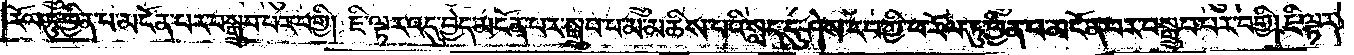རོལ་ཏུ་ཕྱིན་པ་མངོན་པར་བསྒྲུབ་པར་བགྱི། ཇི་ལྟར་འདུ་བྱེད་མངོན་པར་སྒྲུབ་པ་མ་མཆིས་པའི་སླད་དུ་ཤེས་རབ་ཀྱི་ཕ་རོལ་ཏུ་ཕྱིན་པ་མངོན་པར་བསྒྲུབ་པར་བགྱི། ཇི་ལྟར་
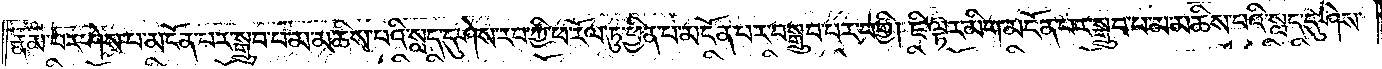རྣམ་པར་ཤེས་པ་མངོན་པར་སྒྲུབ་པ་མ་མཆིས་པའི་སླད་དུ་ཤེས་རབ་ཀྱི་ཕ་རོལ་ཏུ་ཕྱིན་པ་མངོན་པར་བསྒྲུབ་པར་བགྱི། ཇི་ལྟར་མིག་མངོན་པར་སྒྲུབ་པ་མ་མཆིས་པའི་སླད་དུ་ཤེས་
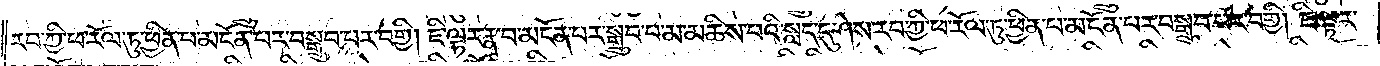རབ་ཀྱི་ཕ་རོལ་ཏུ་ཕྱིན་པ་མངོན་པར་བསྒྲུབ་པར་བགྱི། ཇི་ལྟར་རྣ་བ་མངོན་པར་སྒྲུབ་པ་མ་མཆིས་པའི་སླད་དུ་ཤེས་རབ་ཀྱི་ཕ་རོལ་ཏུ་ཕྱིན་པ་མངོན་པར་བསྒྲུབ་པར་བགྱི། ཇི་ལྟར་
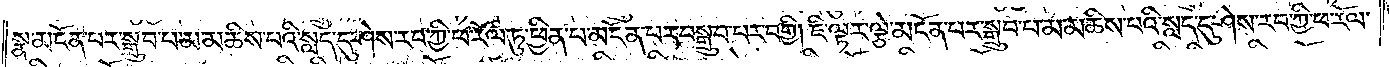སྣ་མངོན་པར་སྒྲུབ་པ་མ་མཆིས་པའི་སླད་དུ་ཤེས་རབ་ཀྱི་ཕ་རོལ་ཏུ་ཕྱིན་པ་མངོན་པར་བསྒྲུབ་པར་བགྱི། ཇི་ལྟར་ལྕེ་མངོན་པར་སྒྲུབ་པ་མ་མཆིས་པའི་སླད་དུ་ཤེས་རབ་ཀྱི་ཕ་རོལ་
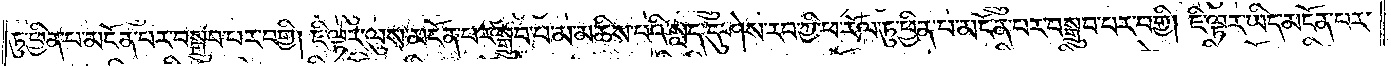ཏུ་ཕྱིན་པ་མངོན་པར་བསྒྲུབ་པར་བགྱི། ཇི་ལྟར་ལུས་མངོན་པར་སྒྲུབ་པ་མ་མཆིས་པའི་སླད་དུ་ཤེས་རབ་ཀྱི་ཕ་རོལ་ཏུ་ཕྱིན་པ་མངོན་པར་བསྒྲུབ་པར་བགྱི། ཇི་ལྟར་ཡིད་མངོན་པར་
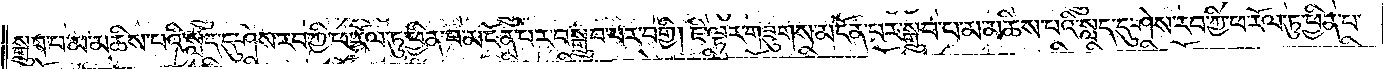སྒྲུབ་པ་མ་མཆིས་པའི་སླད་དུ་ཤེས་རབ་ཀྱི་ཕ་རོལ་ཏུ་ཕྱིན་པ་མངོན་པར་བསྒྲུབ་པར་བགྱི། ཇི་ལྟར་གཟུགས་མངོན་པར་སྒྲུབ་པ་མ་མཆིས་པའི་སླད་དུ་ཤེས་རབ་ཀྱི་ཕ་རོལ་ཏུ་ཕྱིན་པ་
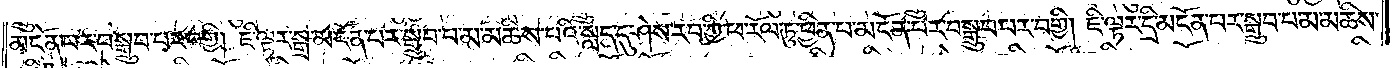མངོན་པར་བསྒྲུབ་པར་བགྱི། ཇི་ལྟར་སྒྲ་མངོན་པར་སྒྲུབ་པ་མ་མཆིས་པའི་སླད་དུ་ཤེས་རབ་ཀྱི་ཕ་རོལ་ཏུ་ཕྱིན་པ་མངོན་པར་བསྒྲུབ་པར་བགྱི། ཇི་ལྟར་དྲི་མངོན་པར་སྒྲུབ་པ་མ་མཆིས་
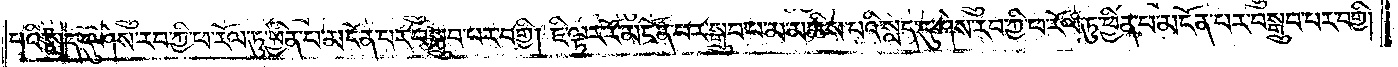པའི་སླད་དུ་ཤེས་རབ་ཀྱི་ཕ་རོལ་ཏུ་ཕྱིན་པ་མངོན་པར་བསྒྲུབ་པར་བགྱི། ཇི་ལྟར་རོ་མངོན་པར་སྒྲུབ་པ་མ་མཆིས་པའི་སླད་དུ་ཤེས་རབ་ཀྱི་ཕ་རོལ་ཏུ་ཕྱིན་པ་མངོན་པར་བསྒྲུབ་པར་བགྱི།
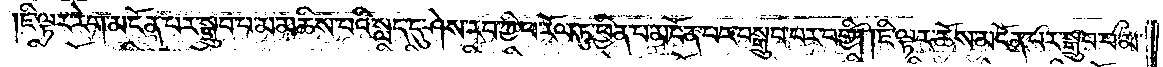ཇི་ལྟར་རེག་མངོན་པར་སྒྲུབ་པ་མ་མཆིས་པའི་སླད་དུ་ཤེས་རབ་ཀྱི་ཕ་རོལ་ཏུ་ཕྱིན་པ་མངོན་པར་བསྒྲུབ་པར་བགྱི། ཇི་ལྟར་ཆོས་མངོན་པར་སྒྲུབ་པ་མ་
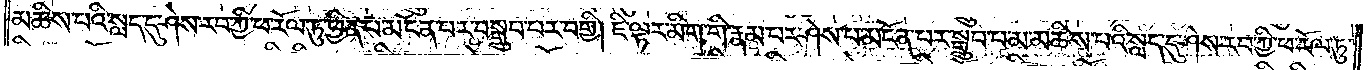མཆིས་པའི་སླད་དུ་ཤེས་རབ་ཀྱི་ཕ་རོལ་ཏུ་ཕྱིན་པ་མངོན་པར་བསྒྲུབ་པར་བགྱི། ཇི་ལྟར་མིག་གི་རྣམ་པར་ཤེས་པ་མངོན་པར་སྒྲུབ་པ་མ་མཆིས་པའི་སླད་དུ་ཤེས་རབ་ཀྱི་ཕ་རོལ་ཏུ་
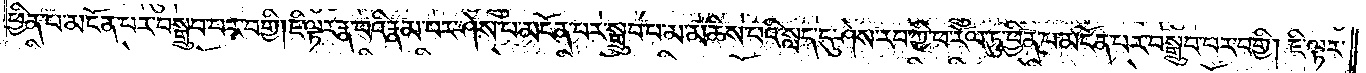ཕྱིན་པ་མངོན་པར་བསྒྲུབ་པར་བགྱི། ཇི་ལྟར་རྣ་བའི་རྣམ་པར་ཤེས་པ་མངོན་པར་སྒྲུབ་པ་མ་མཆིས་པའི་སླད་དུ་ཤེས་རབ་ཀྱི་ཕ་རོལ་ཏུ་ཕྱིན་པ་མངོན་པར་བསྒྲུབ་པར་བགྱི། ཇི་ལྟར་
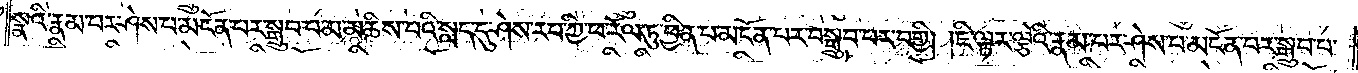སྣའི་རྣམ་པར་ཤེས་པ་མངོན་པར་སྒྲུབ་པ་མ་མཆིས་པའི་སླད་དུ་ཤེས་རབ་ཀྱི་ཕ་རོལ་ཏུ་ཕྱིན་པ་མངོན་པར་བསྒྲུབ་པར་བགྱི། ཇི་ལྟར་ལྕེའི་རྣམ་པར་ཤེས་པ་མངོན་པར་སྒྲུབ་པ་
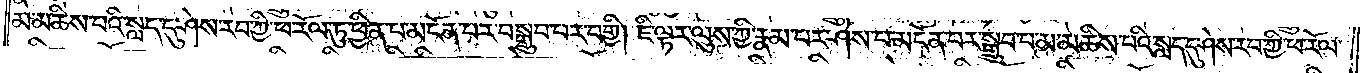མ་མཆིས་པའི་སླད་དུ་ཤེས་རབ་ཀྱི་ཕ་རོལ་ཏུ་ཕྱིན་པ་མངོན་པར་བསྒྲུབ་པར་བགྱི། ཇི་ལྟར་ལུས་ཀྱི་རྣམ་པར་ཤེས་པ་མངོན་པར་སྒྲུབ་པ་མ་མཆིས་པའི་སླད་དུ་ཤེས་རབ་ཀྱི་ཕ་རོལ་
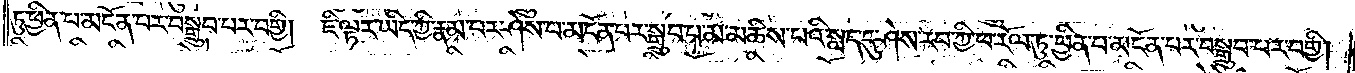ཏུ་ཕྱིན་པ་མངོན་པར་བསྒྲུབ་པར་བགྱི། ཇི་ལྟར་ཡིད་ཀྱི་རྣམ་པར་ཤེས་པ་མངོན་པར་སྒྲུབ་པ་མ་མཆིས་པའི་སླད་དུ་ཤེས་རབ་ཀྱི་ཕ་རོལ་ཏུ་ཕྱིན་པ་མངོན་པར་བསྒྲུབ་པར་བགྱི།
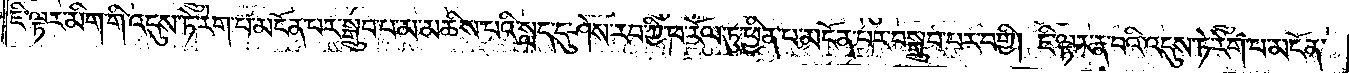ཇི་ལྟར་མིག་གི་འདུས་ཏེ་རེག་པ་མངོན་པར་སྒྲུབ་པ་མ་མཆིས་པའི་སླད་དུ་ཤེས་རབ་ཀྱི་ཕ་རོལ་ཏུ་ཕྱིན་པ་མངོན་པར་བསྒྲུབ་པར་བགྱི། ཇི་ལྟར་རྣ་བའི་འདུས་ཏེ་རེག་པ་མངོན་
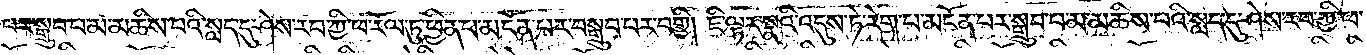པར་སྒྲུབ་པ་མ་མཆིས་པའི་སླད་དུ་ཤེས་རབ་ཀྱི་ཕ་རོལ་ཏུ་ཕྱིན་པ་མངོན་པར་བསྒྲུབ་པར་བགྱི། ཇི་ལྟར་སྣའི་འདུས་ཏེ་རེག་པ་མངོན་པར་སྒྲུབ་པ་མ་མཆིས་པའི་སླད་དུ་ཤེས་རབ་ཀྱི་ཕ་
